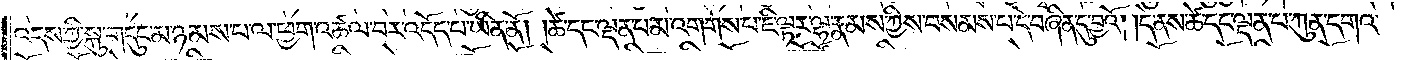འདས་ཀྱི་སྐུ་གདུང་མ་ཉམས་པ་ལ་ཕྱག་འཚལ་བར་འདོད་པ་ཡིན་ནོ། །ཚེ་དང་ལྡན་པ་མ་འགགས་པ་ཇི་ལྟར་ལྷ་རྣམས་ཀྱིས་བསམས་པ་དེ་བཞིན་དུ་བྱའོ། །དེ་ནས་ཚེ་དང་ལྡན་པ་ཀུན་དགའ་
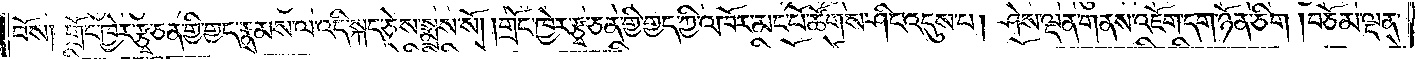བོས། གྲོང་ཁྱེར་རྩྭ་ཅན་གྱི་གྱད་རྣམས་ལ་འདི་སྐད་ཅེས་སྨྲས་སོ། །གྲོང་ཁྱེར་རྩྭ་ཅན་གྱི་གྱད་ཀྱི་འཁོར་མང་པོ་ཚོགས་ཤིང་འདུས་པ། ཤེས་ལྡན་གནས་འཇོག་དག་ཉོན་ཅིག །བཅོམ་ལྡན་
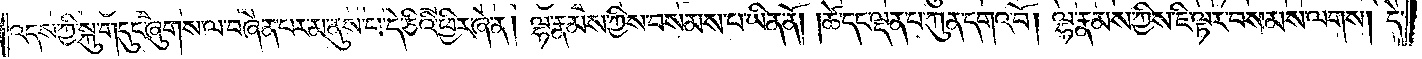འདས་ཀྱི་སྐུ་གདུང་ཞུགས་ལ་བཞེན་པར་མ་ནུས་པ་དེ་ཅིའི་ཕྱིར་ཞེ་ན། ལྷ་རྣམས་ཀྱིས་བསམས་པ་ཡིན་ནོ། །ཚེ་དང་ལྡན་པ་ཀུན་དགའ་བོ། ལྷ་རྣམས་ཀྱིས་ཇི་ལྟར་བསམས་ལགས། དེ་
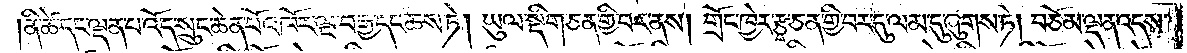ནི་ཚེ་དང་ལྡན་པ་འོད་སྲུང་ཆེན་པོ་འཁོར་ལྔ་བརྒྱ་དང་ཆས་ཏེ། ཡུལ་སྡིག་ཅན་གྱི་བར་ནས། གྲོང་ཁྱེར་རྩྭ་ཅན་གྱི་བར་དུ་ལམ་དུ་ཞུགས་ཏེ། བཅོམ་ལྡན་འདས་
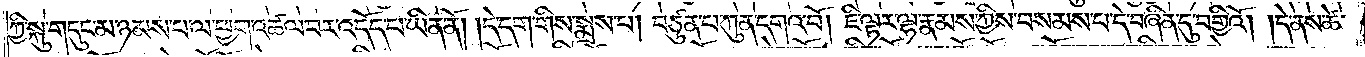ཀྱི་སྐུ་གདུང་མ་ཉམས་པ་ལ་ཕྱག་འཚལ་བར་འདོད་པ་ཡིན་ནོ། །དེ་དག་གིས་སྨྲས་པ། བཙུན་པ་ཀུན་དགའ་བོ། ཇི་ལྟར་ལྷ་རྣམས་ཀྱིས་བསམས་པ་དེ་བཞིན་དུ་བགྱིའོ། །དེ་ནས་ཚེ་
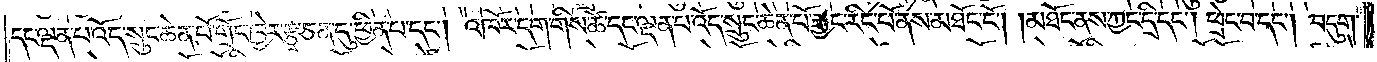དང་ལྡན་པ་འོད་སྲུང་ཆེན་པོ་གྲོང་ཁྱེར་རྩྭ་ཅན་དུ་ཕྱིན་པ་དང༌། འཁོར་དག་གིས་ཚེ་དང་ལྡན་པ་འོད་སྲུང་ཆེན་པོ་རྒྱང་རིང་པོ་ནས་མཐོང་ངོ༌། །མཐོང་ནས་ཀྱང་དྲི་དང༌། ཕྲེང་བ་དང༌། བདུག་
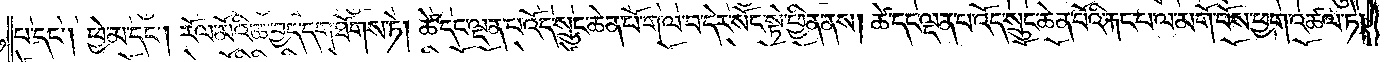པ་དང༌། ཕྱེ་མ་དང༌། རོལ་མོའི་ཆ་བྱད་དག་ཐོགས་ཏེ། ཚེ་དང་ལྡན་པ་འོད་སྲུང་ཆེན་པོ་ག་ལ་བ་དེར་སོང་སྟེ་ཕྱིན་ནས། ཚེ་དང་ལྡན་པ་འོད་སྲུང་ཆེན་པོའི་རྐང་པ་ལ་མགོ་བོས་ཕྱག་འཚལ་ཏེ།
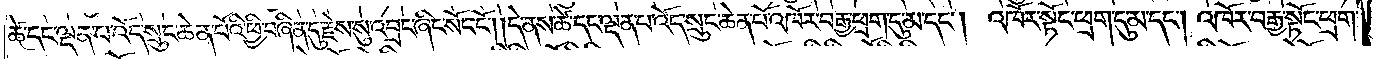ཚེ་དང་ལྡན་པ་འོད་སྲུང་ཆེན་པོའི་ཕྱི་བཞིན་དུ་རྗེས་སུ་འབྲང་ཞིང་སོང་ངོ༌། །དེ་ནས་ཚེ་དང་ལྡན་པ་འོད་སྲུང་ཆེན་པོ་འཁོར་བརྒྱ་ཕྲག་དུ་མ་དང༌། འཁོར་སྟོང་ཕྲག་དུ་མ་དང༌། འཁོར་བརྒྱ་སྟོང་ཕྲག་
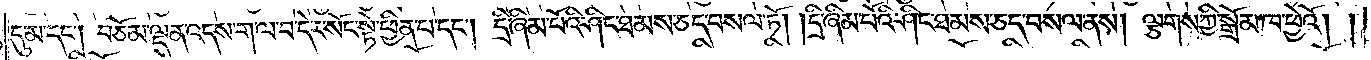དུ་མ་དང༌། བཅོམ་ལྡན་འདས་ག་ལ་བ་དེར་སོང་སྟེ་ཕྱིན་པ་དང༌། དྲི་ཞིམ་པོའི་ཤིང་ཐམས་ཅད་བསལ་ཏོ། །དྲི་ཞིམ་པོའི་ཤིང་ཐམས་ཅད་བསལ་ནས། ལྕགས་ཀྱི་སྒྲོམ་ཁ་ཕྱེའོ། །
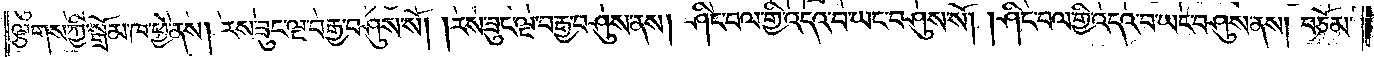ལྕགས་ཀྱི་སྒྲོམ་ཁ་ཕྱེ་ནས། རས་ཟུང་ལྔ་བརྒྱ་བཤུས་སོ། །རས་ཟུང་ལྔ་བརྒྱ་བཤུས་ནས། ཤིང་བལ་གྱི་འདའ་བ་ཡང་བཤུས་སོ། །ཤིང་བལ་གྱི་འདའ་བ་ཡང་བཤུས་ནས། བཅོམ་
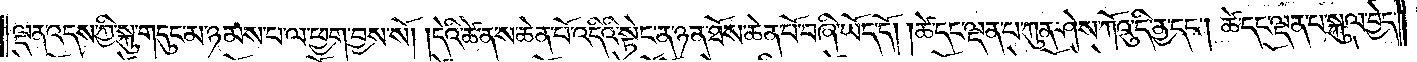ལྡན་འདས་ཀྱི་སྐུ་གདུང་མ་ཉམས་པ་ལ་ཕྱག་བྱས་སོ། །དེའི་ཚེ་ན་ས་ཆེན་པོ་འདིའི་སྟེང་ན་ཉན་ཐོས་ཆེན་པོ་བཞི་ཡོད་དོ། །ཚེ་དང་ལྡན་པ་ཀུན་ཤེས་ཀོའུ་དི་ནྱ་དང༌། ཚེ་དང་ལྡན་པ་སྐུལ་བྱེད་
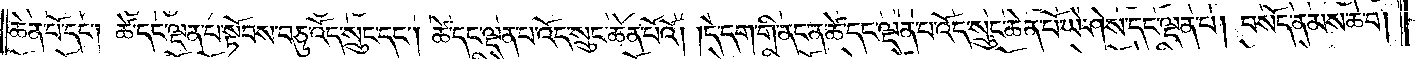ཆེན་པོ་དང༌། ཚེ་དང་ལྡན་པ་སྟོབས་བཅུ་འོད་སྲུང་དང༌། ཚེ་དང་ལྡན་པ་འོད་སྲུང་ཆེན་པོའོ། །དེ་དག་གི་ནང་ན་ཚེ་དང་ལྡན་པ་འོད་སྲུང་ཆེན་པོ་ཡེ་ཤེས་དང་ལྡན་པ། བསོད་ནམས་ཆེ་བ།
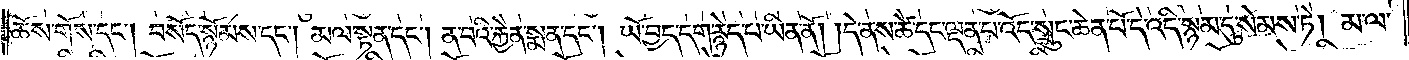ཆོས་གོས་དང༌། བསོད་སྙོམས་དང༌། མལ་སྟན་དང༌། ན་བའི་རྐྱེན་སྨན་དང༌། ཡོ་བྱད་དག་རྙེད་པ་ཡིན་ནོ། །དེ་ནས་ཚེ་དང་ལྡན་པ་འོད་སྲུང་ཆེན་པོ་དེ་འདི་སྙམ་དུ་སེམས་ཏེ། མ་ལ་
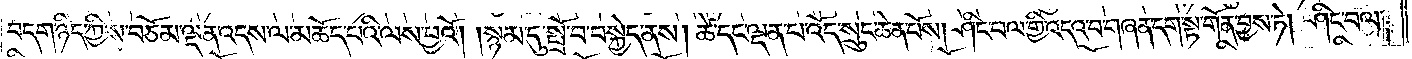བདག་ཉིད་ཀྱིས་བཅོམ་ལྡན་འདས་ལ་མཆོད་པའི་ལས་བྱའོ། །སྙམ་དུ་སྤྲོ་བ་བསྐྱེད་ནས། ཚེ་དང་ལྡན་པ་འོད་སྲུང་ཆེན་པོས། ཤིང་བལ་གྱི་འདའ་བ་གཞན་དག་སྟ་གོན་བྱས་ཏེ། ཤིང་བལ་
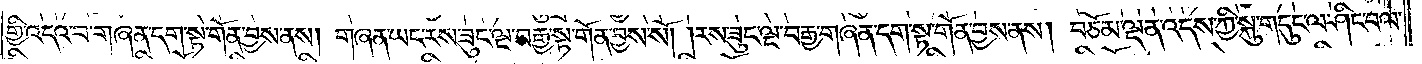གྱི་འདའ་བ་གཞན་དག་སྟ་གོན་བྱས་ནས། གཞན་ཡང་རས་ཟུང་ལྔ་བརྒྱ་སྟ་གོན་བྱས་སོ། །རས་ཟུང་ལྔ་བརྒྱ་གཞན་དག་སྟ་གོན་བྱས་ནས། བཅོམ་ལྡན་འདས་ཀྱི་སྐུ་གདུང་ལ་ཤིང་བལ་
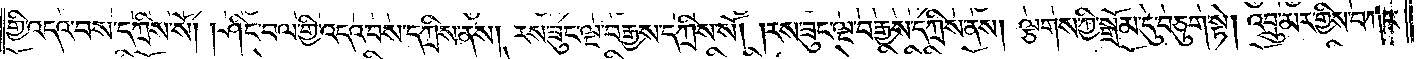གྱི་འདའ་བས་དཀྲིས་སོ། །ཤིང་བལ་གྱི་འདའ་བས་དཀྲིས་ནས། རས་ཟུང་ལྔ་བརྒྱས་དཀྲིས་སོ། །རས་ཟུང་ལྔ་བརྒྱས་དཀྲིས་ནས། ལྕགས་ཀྱི་སྒྲོམ་དུ་བཅུག་སྟེ། འབྲུ་མར་གྱིས་བཀང་
